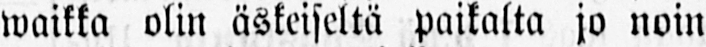waikka olin äskeiseltä paikalta jo noin
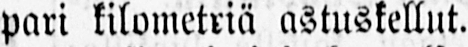pari kilometriä astuskellut.
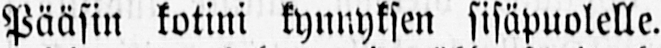Pääsin kotini kynnyksen sisäpuolelle.
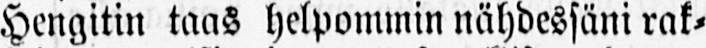Hengitin taas helpommin nähdessäni rak-
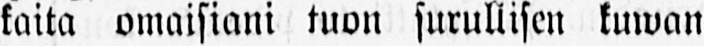kaita omaisiani tuon surullisen kuwan
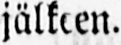jälkeen.
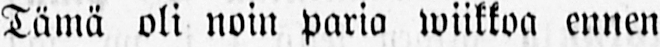Tämä oli noin paria wiikkoa ennen
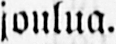joulua.
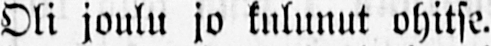Oli joulu jo kulunut ohitse.
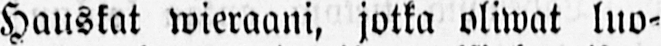Hauskat wieraani, jotka oliwat luo-
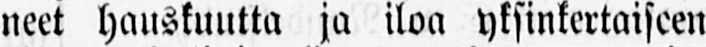neet hauskuutta ja iloa yksinkertaiseen
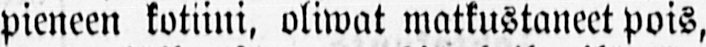pieneen kotiini, oliwat matkustaneet pois,
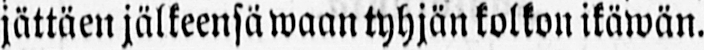jättäen jälkeensä waan tyhjän kolkon ikäwän.
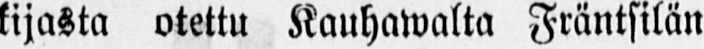kijasta otettu Kauhawalta Fräntsilän
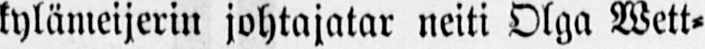kylämeijerin johtajatar neiti Olga Wett-
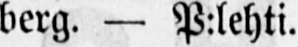berg. — P:lehti.
